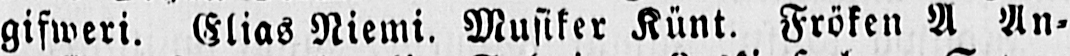gifweri. Elias Niemi. Musiker Künt, Fröken A An-
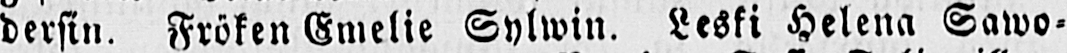dersin, Fröken Emelie Sylwin. Leski Helena Sawo-
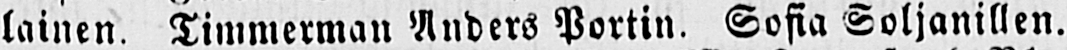lainen. Timmerman Anders Portin. Sofia Soljanillen.
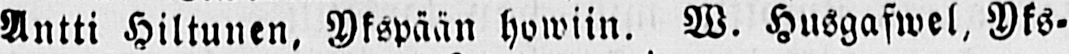Antti Hiltunen. Ykspään howiin. W. Husgafwel, Yks-
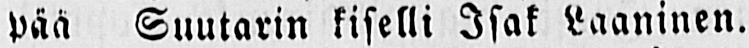pää Suutarin fiselli Isak Laaninen.
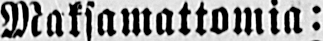Maksamattomia:
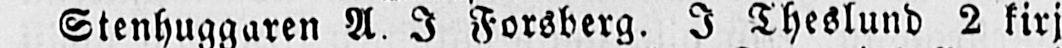Stenhuggaren A. I. Forsberg. I Theslund 2 kirj.
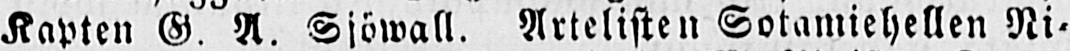Kapten G. A. Sjöwall. Artelisten Sotamiehellen Ni-
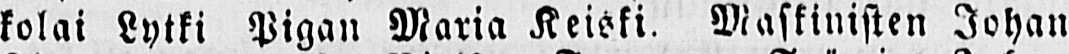kolai Lytki Pigan Maria Keiski. Maskinisten Johan
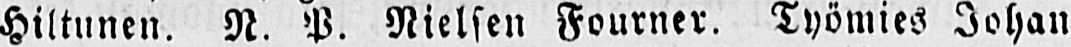Hiltunen. N. V. Nielsen Fourner, Työmies Johan
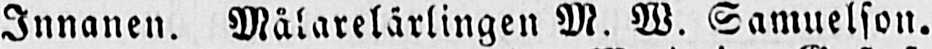Innanen. Målarelärlingen M. W. Samuelson. Sten-
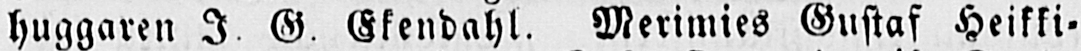huggaren I. G. Skendahl. Merimies Gustaf Heikki-
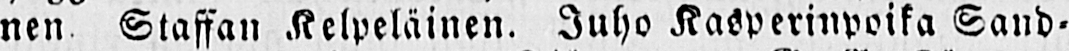nen Staffan Kelpeläinen. Juho Kasperinpoika Sand-
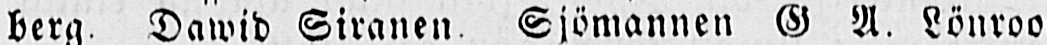berg. Dawid Siranen Sjömannen G. A. Lönros,
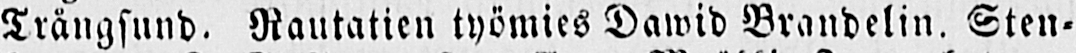Trängsund. Rautatien työmies Dawid Brandelin. Sten-
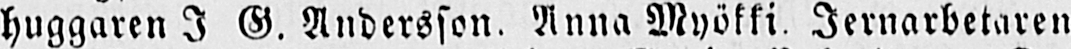huggaren I. G. Andersson, Anna Wyökki. Jernarbetaren
